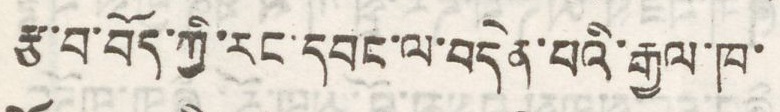རྩ་བ་བོད་ཀྱི་རང་དབང་ལ་བདེན་པའི་རྒྱལ་ཁ་
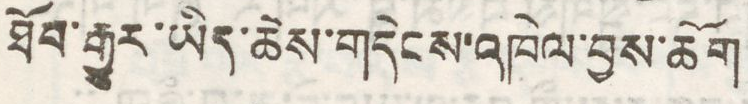ཐོབ་རྒྱུར་ཡིད་ཆེས་གདེངས་འཁེལ་བྱས་ཆོག
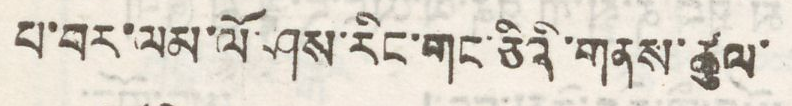པ་བར་ལམ་ལོ་ཤས་རིང་གང་ཅིའི་གནས་ཚུལ་
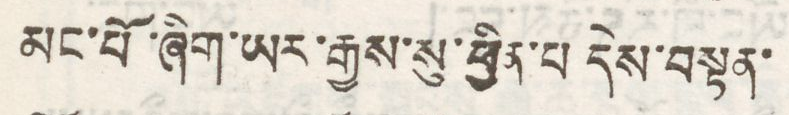མང་པོ་ཞིག་ཡར་རྒྱས་སུ་ཕྱིན་པ དེས་བསྟན་
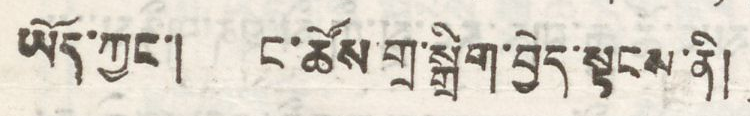ཡོད་ཀྱང་། ང་ཚོས་གྲ་སྒྲིག་བྱེད་སྟངས་ནི།
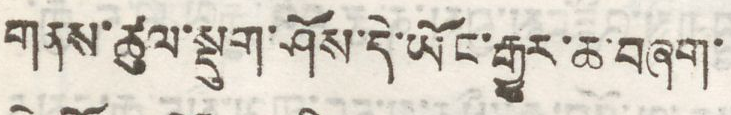གནས་ཚུལ་སྡུག་ཤོས་དེ་ཡོང་རྒྱུར་ཆ་བཞག་
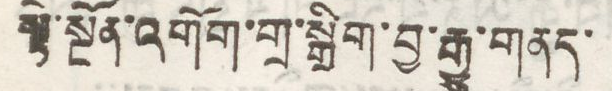སྟེ་སྔོན་འགོག་གྲ་སྒྲིག་བྱ་རྒྱུ་གནད་
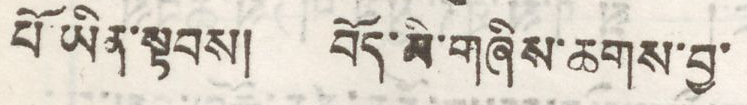པོ ཡིན་སྟབས། བོད་མི་གཞིས་ཆགས་བྱ་
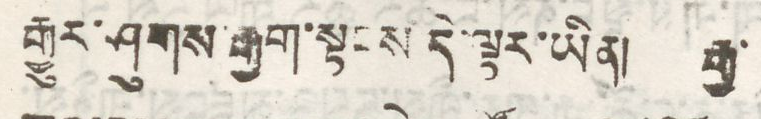རྒྱུར་ཤུགས་རྒྱག་སྟངས དེ་ལྟར་ཡིན། རྒྱ་
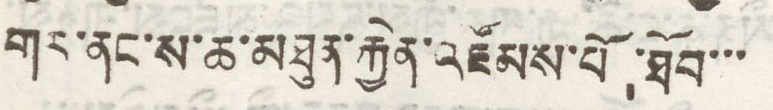གར་ནང་ས་ཆ་མཐུན་རྐྱེན་འཛོམས་པོ་ཐོབ་་་
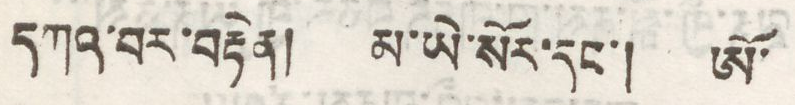དཀའ་བར་བརྟེན། མ་ཡེ་སོར་དང་། ཨོ་
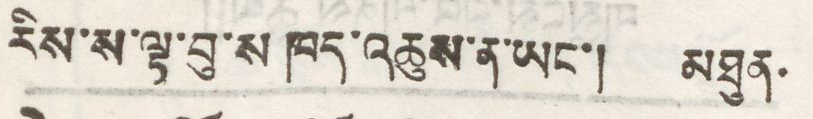རིས་ས་ལྟ་བུ་ས ཁད་འཆུས་ན་ཡང་། མཐུན་
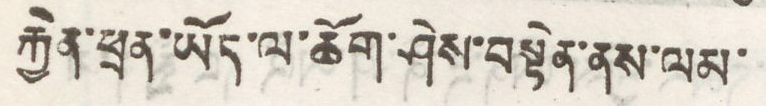རྐྱེན་ཕྲན་ཡོད་ལ་ཆོག་ཤེས་བསྟེན་ནས་ལམ་
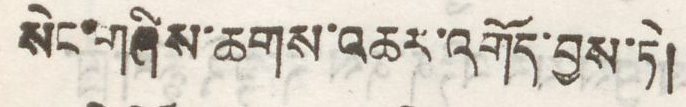སེང་གཞིས་ཆགས་འཆར་འགོད་བྱས་ཏེ།
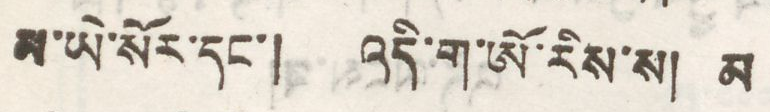མ་ཡེ་སོར་དང་། འདི་ག་ཨོ་རིས་ས། མ
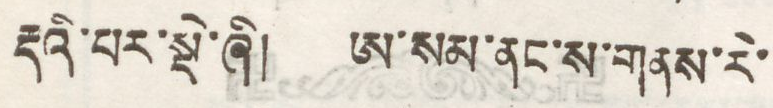རྡའི་པར་སྡེ་ཞི། ཨ་སམ་ནང་ས་གནས་རེ་
